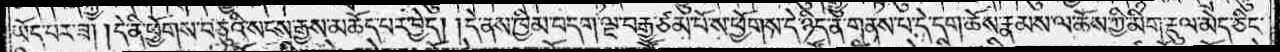ཡོད་པར་ཟ། །དེ་ནི་ཕྱོགས་བཅུའི་སངས་རྒྱས་མཆོད་པར་བྱེད། །དེ་ནས་ཁྱིམ་བདག་ལྔ་བརྒྱ་ཙམ་པོས་ས་ཕྱོགས་དེ་ཉིད་ན་གནས་པ་དེ་དག་ཆོས་རྣམས་ལ་ཆོས་ཀྱི་མིག་རྡུལ་མེད་ཅིང་
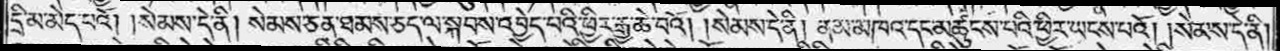དྲི་མ་མེད་པའོ། །སེམས་དེ་ནི། སེམས་ཅན་ཐམས་ཅད་ལ་སྐབས་འབྱེད་པའི་ཕྱིར་རྒྱ་ཆེ་བའོ། །སེམས་དེ་ནི། ནམ་མཁའ་དང་མཚུངས་པའི་ཕྱིར་ཡངས་པའོ། །སེམས་དེ་ནི།
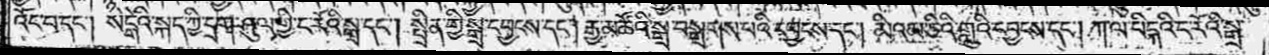འོང་བ་དང༌། སེངྒེའི་སྐད་ཀྱི་དྲག་ཤུལ་གྱི་ང་རོའི་སྒྲ་དང༌། སྤྲིན་གྱི་སྒྲ་དབྱངས་དང༌། རྒྱ་མཚོའི་སྒྲ་བསྒྲགས་པའི་དབྱངས་དང༌། མིའམ་ཅིའི་གླུའི་དབྱངས་དང༌། ཀ་ལ་པིངྐའི་ང་རོའི་སྒྲ་
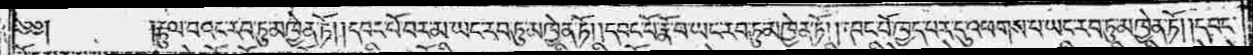༄༅༎རྟུལ་བའང་རབ་ཏུ་མཁྱེན་ཏོ། །དབང་པོ་བར་མ་ཡང་རབ་ཏུ་མཁྱེན་ཏོ། །དབང་པོ་རྣོ་བ་ཡང་རབ་ཏུ་མཁྱེན་ཏོ། །དབང་པོ་ཁྱད་པར་དུ་འཕགས་པ་ཡང་རབ་ཏུ་མཁྱེན་ཏོ། །དབང་
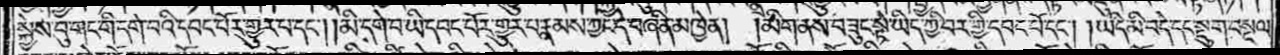སྐྱེས་བུ་གང་གི་དགེ་བའི་དབང་པོར་གྱུར་པ་དང༌། །མི་དགེ་བ་ཡི་དབང་པོར་གྱུར་པ་རྣམས་ཀྱང་དེ་བཞིན་མཁྱེན། །མིག་ནས་བཟུང་སྟེ་ཡིད་ཀྱི་བར་གྱི་དབང་པོ་དང༌། །ཡིད་མི་བདེ་དང་སྡུག་བསྔལ་
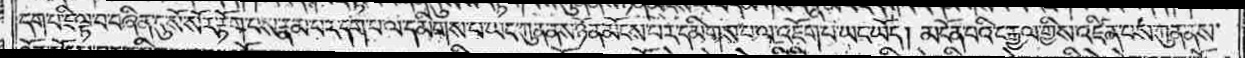དག་པ་ཇི་ལྟ་བ་བཞིན་དུ་སོ་སོར་རྟོག་པས་རྣམ་པར་དག་པ་ལ་དམིགས་པ་ཡང་ཀུན་ནས་ཉོན་མོངས་པར་དམིགས་པ་ལ་འཇོག་པ་ཡང་ཡོད། མངོན་པའི་ང་རྒྱལ་གྱིས་འཛིན་པས་ཀུན་ནས་
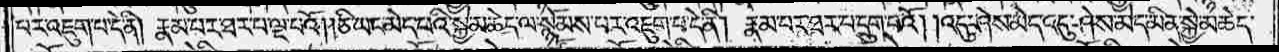པར་འཇུག་པ་དེ་ནི། རྣམ་པར་ཐར་པ་ལྔ་པའོ། །ཅི་ཡང་མེད་པའི་སྐྱེ་མཆེད་ལ་སྙོམས་པར་འཇུག་པ་དེ་ནི། རྣམ་པར་ཐར་པ་དྲུག་པའོ། །འདུ་ཤེས་མེད་འདུ་ཤེས་མེད་མིན་སྐྱེ་མཆེད་
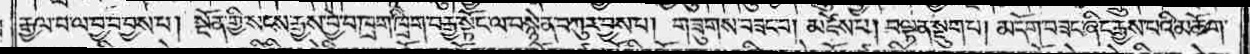རྒྱལ་བ་ལ་བྱ་བ་བྱས་པ། སྔོན་གྱི་སངས་རྒྱས་བྱེ་བ་ཁྲག་ཁྲིག་བརྒྱ་སྟོང་ལ་བསྙེན་བཀུར་བྱས་པ། གཟུགས་བཟང་བ། མཛེས་པ། བལྟ་ན་སྡུག་པ། མདོག་བཟང་ཞིང་རྒྱས་པའི་མཆོག་
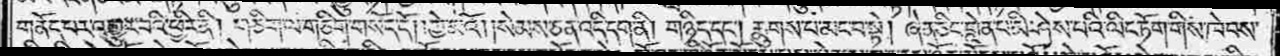གནོད་པར་འགྱུར་བའི་ཕྱིར་ནི། གཅིག་ལ་གཅིག་གསོད་དོ། །ཀྱེ་མའོ། །སེམས་ཅན་འདི་དག་ནི། གཉིད་དང༌། རྨུགས་པ་མང་བ་སྟེ། ཞེན་ཅིང་གླེན་པ་མི་ཤེས་པའི་ལིང་ཏོག་གིས་ཁེབས་
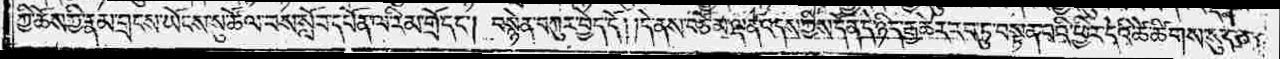ཀྱི་ཆོས་ཀྱི་རྣམ་གྲངས་ཡོངས་སུ་ཚོལ་བས་སློབ་དཔོན་ལ་རིམ་གྲོ་དང༌། བསྙེན་བཀུར་བྱེད་དོ། །དེ་ནས་བཅོམ་ལྡན་འདས་ཀྱིས་དོན་དེ་ཉིད་རྒྱ་ཆེར་རབ་ཏུ་བསྟན་པའི་ཕྱིར་དེའི་ཚེ་ཚིགས་སུ་བཅད་
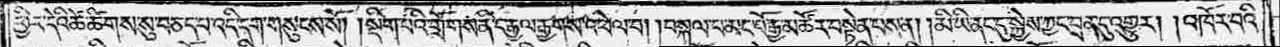ཕྱིར་དེའི་ཚེ་ཚིགས་སུ་བཅད་པ་འདི་དག་གསུངས་སོ། །སྡིག་པའི་གྲོགས་ནི་ང་རྒྱལ་རྒྱགས་འཕེལ་བ། །བསྐལ་བ་མང་པོ་རྒྱ་མཚོར་བསྟེན་པས་ན། །མི་ཡི་ནང་དུ་སྐྱེས་ཀྱང་བྲན་དུ་འགྱུར། །འཁོར་བའི་
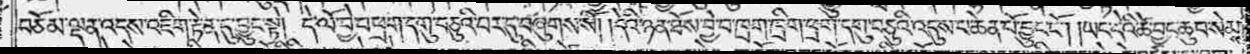བཅོམ་ལྡན་འདས་འཇིག་རྟེན་དུ་བྱུང་སྟེ། དེ་ལོ་བྱེ་བ་ཕྲག་དགུ་བཅུའི་བར་དུ་བཞུགས་སོ། །དེའི་ཉན་ཐོས་བྱེ་བ་ཁྲག་ཁྲིག་ཕྲག་དགུ་བཅུའི་འདུས་པ་ཆེན་པོ་བྱུང་ངོ༌། །ཡང་དེའི་ཚེ་བྱང་ཆུབ་སེམས་
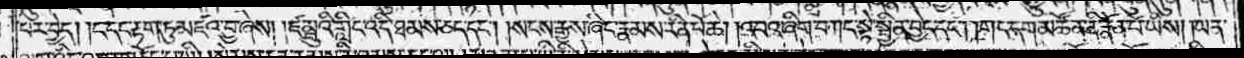པར་བྱེད། །ང་དང་རྟག་ཏུ་མཛའ་བྱ་ཞེས། །ཛམྦུའི་གླིང་འདི་ཐམས་ཅད་དང༌། །སངས་རྒྱས་ཞིང་རྣམས་རིན་པོ་ཆེ། །འབའ་ཞིག་བཀང་སྟེ་སྦྱིན་བྱེད་དང༌། །གང་དག་མཚོན་ནི་རྣོན་པོ་ཡིས། །ཡན་
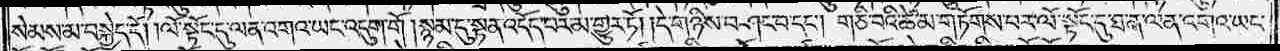སེམས་མ་བསྐྱེད་དོ། །ལོ་སྟོང་དུ་ལན་འགའ་ཡང་འདུག་གོ །སྙམ་དུ་སྟན་འདོད་པར་མ་གྱུར་ཏོ། །དེ་གཉིས་བཤང་བ་དང༌། གཅི་བའི་ཚེ་མ་གཏོགས་པར་ལོ་སྟོང་དུ་ཐ་ན་ལན་འགའ་ཡང་
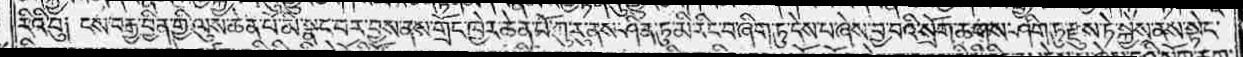རིའི་བུ། ངས་བརྒྱ་བྱིན་གྱི་ལུས་ཆེན་པོ་མི་སྣང་བར་བྱས་ནས་གྲོང་ཁྱེར་ཆེན་པོ་ཀུ་རུ་ནས་ཤིན་ཏུ་མི་རིང་བ་ཞིག་ཏུ་དེས་པ་ཞེས་བྱ་བའི་སྲོག་ཆགས་ཤིག་ཏུ་རྫུས་ཏེ་སྐྱེས་ནས་སྟེང་
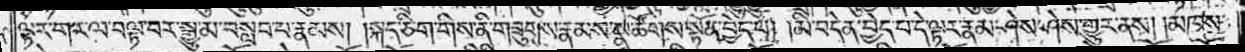ལྟར་གར་ལ་བལྟ་བར་སྒྱུ་མ་བསླབ་པ་རྣམས། །སྐད་ཅིག་གིས་ནི་གཟུགས་རྣམས་སྣ་ཚོགས་སྟོན་བྱེད་པ། །མི་བདེན་བྱེད་པ་དེ་ལྟར་རྣམ་ཤེས་ཤེས་གྱུར་ནས། །མཁས་
